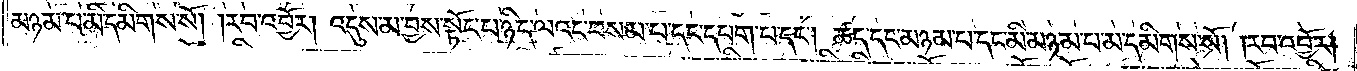མཉམ་པ་མི་དམིགས་སོ། །རབ་འབྱོར། འདུས་མ་བྱས་སྟོང་པ་ཉིད་ལའང་བསམ་པ་དང་དཔག་པ་དང༌། ཚད་དང་མཉམ་པ་དང་མི་མཉམ་པ་མི་དམིགས་སོ། །རབ་འབྱོར།
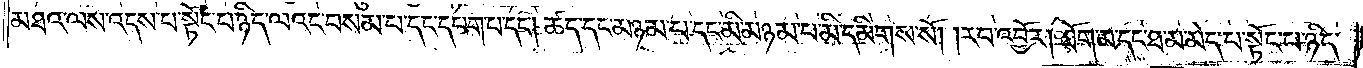མཐའ་ལས་འདས་པ་སྟོང་པ་ཉིད་ལའང་བསམ་པ་དང་དཔག་པ་དང༌། ཚད་དང་མཉམ་པ་དང་མི་མཉམ་པ་མི་དམིགས་སོ། །རབ་འབྱོར། ཐོག་མ་དང་ཐ་མ་མེད་པ་སྟོང་པ་ཉིད་
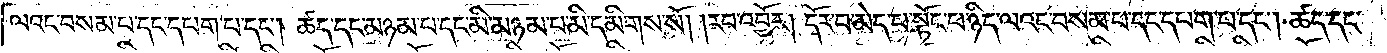ལའང་བསམ་པ་དང་དཔག་པ་དང༌། ཚད་དང་མཉམ་པ་དང་མི་མཉམ་པ་མི་དམིགས་སོ། །རབ་འབྱོར། དོར་བ་མེད་པ་སྟོང་པ་ཉིད་ལའང་བསམ་པ་དང་དཔག་པ་དང༌། ཚད་དང་
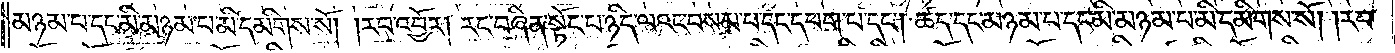མཉམ་པ་དང་མི་མཉམ་པ་མི་དམིགས་སོ། །རབ་འབྱོར། རང་བཞིན་སྟོང་པ་ཉིད་ལའང་བསམ་པ་དང་དཔག་པ་དང༌། ཚད་དང་མཉམ་པ་དང་མི་མཉམ་པ་མི་དམིགས་སོ། །རབ་
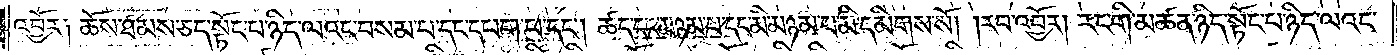འབྱོར༑ ཆོས་ཐམས་ཅད་སྟོང་པ་ཉིད་ལའང་བསམ་པ་དང་དཔག་པ་དང༌། ཚད་དང་མཉམ་པ་དང་མི་མཉམ་པ་མི་དམིགས་སོ། །རབ་འབྱོར། རང་གི་མཚན་ཉིད་སྟོང་པ་ཉིད་ལའང་
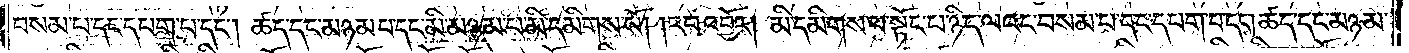བསམ་པ་དང་དཔག་པ་དང༌། ཚད་དང་མཉམ་པ་དང་མི་མཉམ་པ་མི་དམིགས་སོ། །རབ་འབྱོར། མི་དམིགས་པ་སྟོང་པ་ཉིད་ལའང་བསམ་པ་དང་དཔག་པ་དང༌། ཚད་དང་མཉམ་
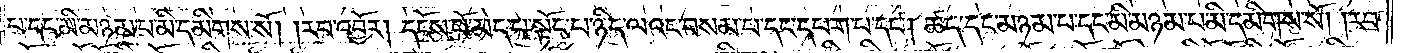པ་དང་མི་མཉམ་པ་མི་དམིགས་སོ། །རབ་འབྱོར། དངོས་པོ་མེད་པ་སྟོང་པ་ཉིད་ལའང་བསམ་པ་དང་དཔག་པ་དང༌། ཚད་དང་མཉམ་པ་དང་མི་མཉམ་པ་མི་དམིགས་སོ། །རབ་
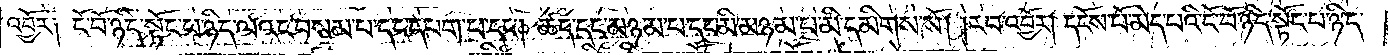འབྱོར༑ ངོ་བོ་ཉིད་སྟོང་པ་ཉིད་ལའང་བསམ་པ་དང་དཔག་པ་དང༌། ཚད་དང་མཉམ་པ་དང་མི་མཉམ་པ་མི་དམིགས་སོ། །རབ་འབྱོར། དངོས་པོ་མེད་པའི་ངོ་བོ་ཉིད་སྟོང་པ་ཉིད་
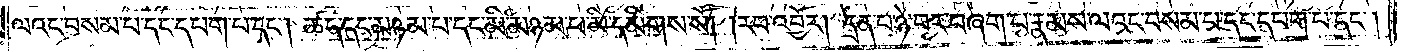ལའང་བསམ་པ་དང་དཔག་པ་དང༌། ཚད་དང་མཉམ་པ་དང་མི་མཉམ་པ་མི་དམིགས་སོ། །རབ་འབྱོར། དྲན་པ་ཉེ་བར་བཞག་པ་རྣམས་ལའང་བསམ་པ་དང་དཔག་པ་དང༌།
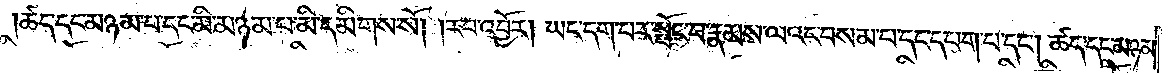ཚད་དང་མཉམ་པ་དང་མི་མཉམ་པ་མི་དམིགས་སོ། །རབ་འབྱོར། ཡང་དག་པར་སྤོང་བ་རྣམས་ལའང་བསམ་པ་དང་དཔག་པ་དང༌། ཚད་དང་མཉམ་
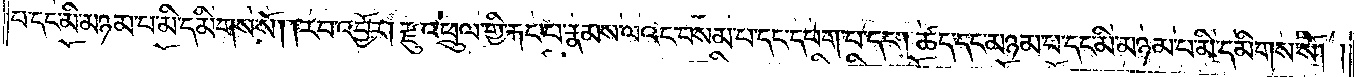པ་དང་མི་མཉམ་པ་མི་དམིགས་སོ། །རབ་འབྱོར། རྫུ་འཕྲུལ་གྱི་རྐང་པ་རྣམས་ལའང་བསམ་པ་དང་དཔག་པ་དང༌། ཚད་དང་མཉམ་པ་དང་མི་མཉམ་པ་མི་དམིགས་སོ། །
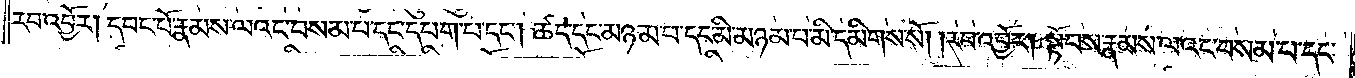རབ་འབྱོར། དབང་པོ་རྣམས་ལའང་བསམ་པ་དང་དཔག་པ་དང༌། ཚད་དང་མཉམ་པ་དང་མི་མཉམ་པ་མི་དམིགས་སོ། །རབ་འབྱོར། སྟོབས་རྣམས་ལའང་བསམ་པ་དང་
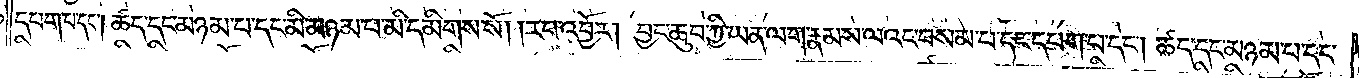དཔག་པ་དང༌། ཚད་དང་མཉམ་པ་དང་མི་མཉམ་པ་མི་དམིགས་སོ། །རབ་འབྱོར། བྱང་ཆུབ་ཀྱི་ཡན་ལག་རྣམས་ལའང་བསམ་པ་དང་དཔག་པ་དང༌། ཚད་དང་མཉམ་པ་དང་
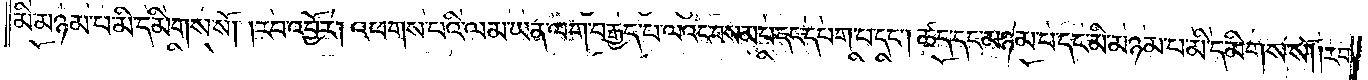མི་མཉམ་པ་མི་དམིགས་སོ། །རབ་འབྱོར། འཕགས་པའི་ལམ་ཡན་ལག་བརྒྱད་པ་ལའང་བསམ་པ་དང་དཔག་པ་དང༌། ཚད་དང་མཉམ་པ་དང་མི་མཉམ་པ་མི་དམིགས་སོ། །རབ་
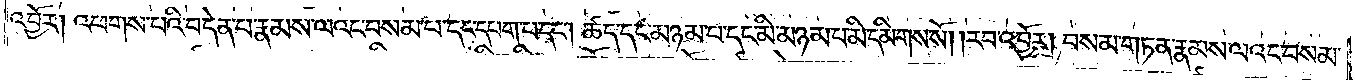འབྱོར། འཕགས་པའི་བདེན་པ་རྣམས་ལའང་བསམ་པ་དང་དཔག་པ་དང༌། ཚད་དང་མཉམ་པ་དང་མི་མཉམ་པ་མི་དམིགས་སོ། །རབ་འབྱོར། བསམ་གཏན་རྣམས་ལའང་བསམ་
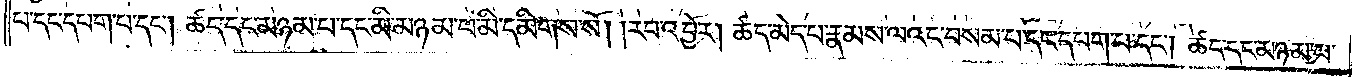པ་དང་དཔག་པ་དང༌། ཚད་དང་མཉམ་པ་དང་མི་མཉམ་པ་མི་དམིགས་སོ། །རབ་འབྱོར། ཚད་མེད་པ་རྣམས་ལའང་བསམ་པ་དང་དཔག་པ་དང༌། ཚད་དང་མཉམ་པ་
